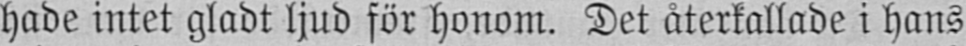hade intet gladt ljud för honom. Det återkallade i hans
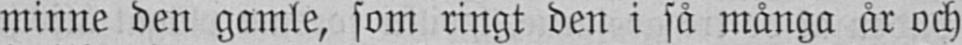minne den gamle, som ringt den i så många år och
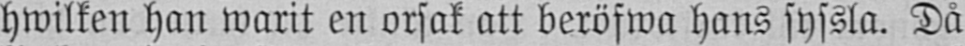hwilken han warit en orsak att beröfwa hans syssla. Då
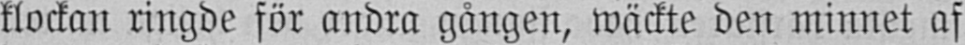klockan ringde för andra gången, wäckte den minnet af
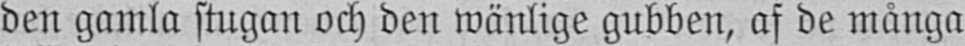den gamla stugan och den wänlige gubben, af de många
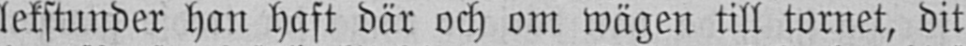lekstunder han haft där och om wägen till tornet, dit
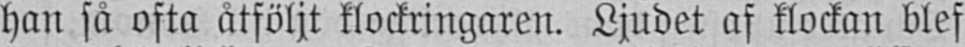han så ofta åtföljt klockringaren. Ljudet af klockan blef
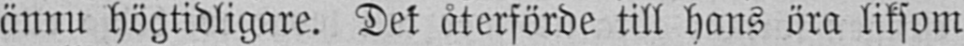ännu högtidligare. Det återförde till hans öra liksom
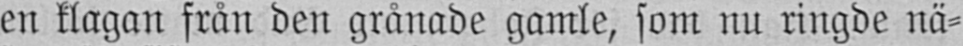en klagan från den grånade gamle, som nu ringde nä-
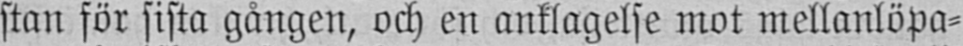stan för sista gången, och en anklagelse mot mellanlöpa-
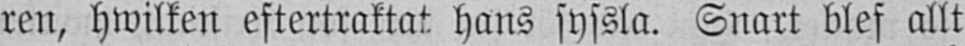ren, hwilken eftertraktat hans syssla. Snart blef allt
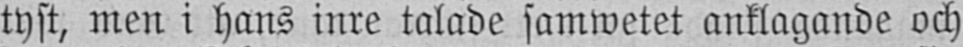tyst, men i hans inre talade samwetet anklagande och
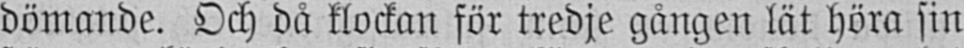dömande. Och då klockan för tredje gången lät höra sin
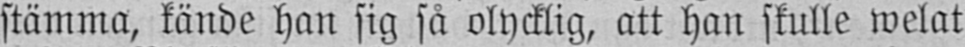stämma, kände han sig så olycklig, att han skulle welat
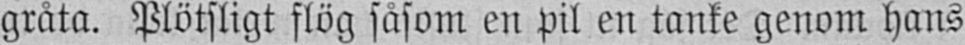gråta. Plötsligt flög såsom en pil en tanke genom hans
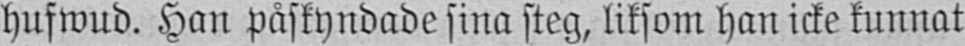hufwud. Han påskyndade sina steg, liksom han icke kunnat
